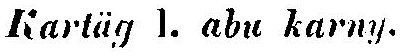Kartäg l. abu karny.
